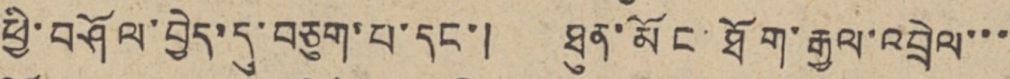ཕྱི་བཤོལ་བྱེད་དུ་བཅུག་པ་དང་། ཐུན་མོང་ཐོག་རྒྱལ་འབྲེལ་་་
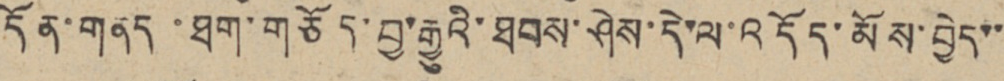དོན་གནད་ཐག་གཅོད་བྱ་རྒྱུའི་ཐབས་ཤེས་དེ་ལ་འདོད་མོས་བྱེད་་
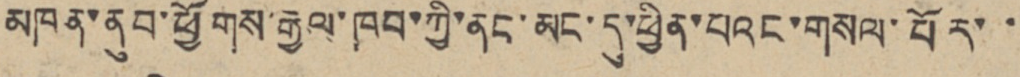མཁན་ནུབ་ཕྱགོས་རྒྱལ་ཁབ་ཀྱི་ནང་མང་དུ་ཕྱིན་པའང་གསལ་པོར་་
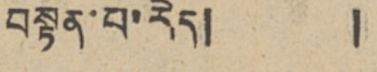བསྟན་པ་རེད། །
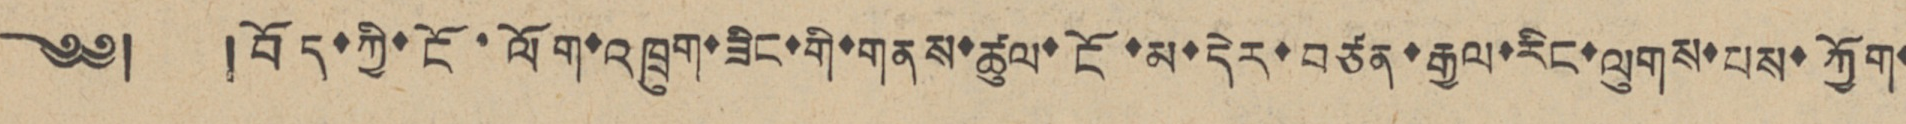༄༅། །བོད་ཀྱི་ངོ་ལོག་འཁྲུག་ཟིང་གི་གནས་ཚུལ་ངོ་མ་དེར་བཙན་རྒྱལ་རིང་ལུགས་པས་ཀྱོག་
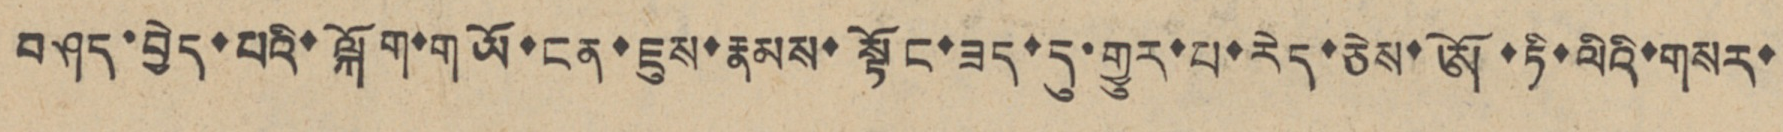བཤད་བྱེད་པའི་ལྐོག་གཡོ་ངན་ཇུས་རྣམས་སྟོང་ཟད་དུ་གྱུར་པ་རེད་ཅེས་ཨོ་ཏི་ལིའི་གསར་
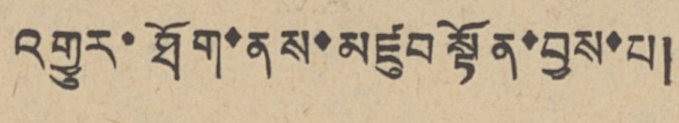འགྱུར་ཐོག་ནས་མཛུབ སྟོན་བྱས་པ།
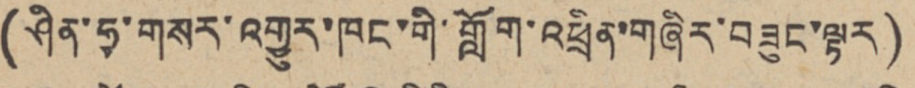(ཤིན་ཧྭ་གསར་འགྱུར་ཁང་གི་གློག་འཕྲིན་གཞིར་བཟུང་ལྟར)
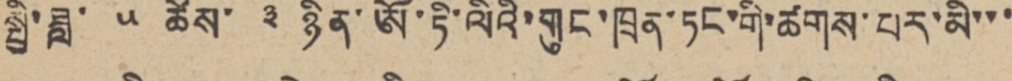སྤྱི་ཟླ་ ༥ ཚེས་ ༣ ཉིན་ཨོ་ཏི་ལིའི་གུང་ཁྲན་ཏང་གི་ཚགས་པར་མི་་་
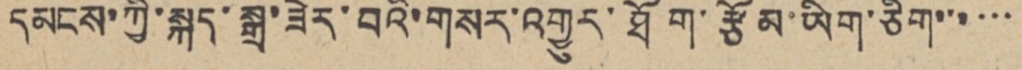དམངས་ཀྱི་སྐད་སྒྲ་ཟེར་བའི་གསར་འགྱུར་ཐོག་རྩོམ་ཡིག་ཅིག་་་་་་
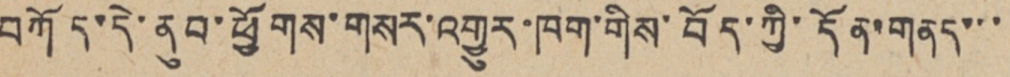བཀོད་དེ་ནུབ་ཕྱོགས་གསར་འགྱུར་ཁག་གིས་བོད་ཀྱི་དོན་གནད་་་
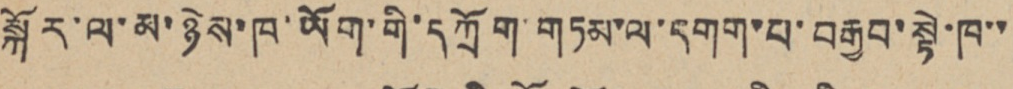སྐོར་ལ་མ་ཉེས་ཁ་ཡོག་གི་དཀྲོག་གཏམ་ལ་དགག་པ་བརྒྱབ་སྟེ་ཁ་་
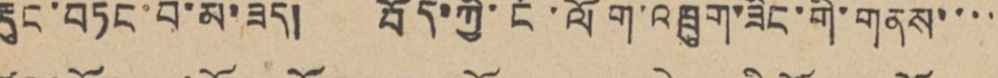རྡུང་བཏང་བ་མ་ཟད། བོད་ཀྱི་ངོ་ལོག་འཁྲུག་ཟིང་གི་གནས་་་་
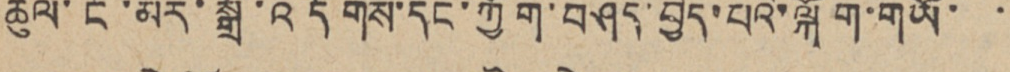ཚུལ་ངོ་མར་སྒྲོ་འདོགས་དང་ཀྱོག་བཤད་བྱེད་པའི་ལྐོག་གཡོ་ ་
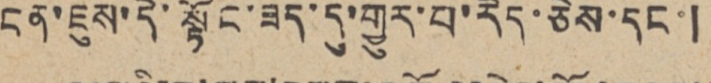ངན་ཇུས་དེ་སྟོང་ཟད་དུ་གྱུར་པ་རེད་ཅེས་དང་།
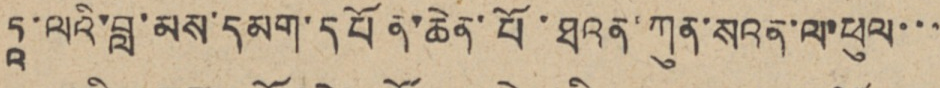ཏཱ་ལའི་བླ་མས་དམག་དཔོན་ཆེན་པོ་ཐའན་ཀུན་སའན་ལ་ཕུལ་་་
